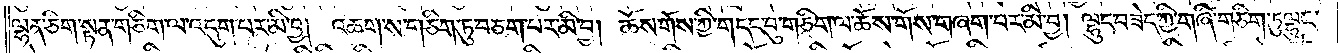ལྷན་ཅིག་སྟན་གཅིག་ལ་འདུག་པར་མི་བྱ། འཆག་ས་གཅིག་ཏུ་བཅག་པར་མི་བྱ། ཆོས་གོས་ཀྱི་གདང་བུ་གཅིག་ལ་ཆོས་གོས་གཞག་པར་མི་བྱ། ལྷུང་བཟེད་ཀྱི་གཞི་གཅིག་ཏུ་ལྷུང་
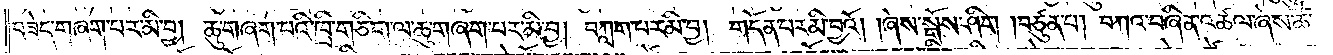བཟེད་གཞག་པར་མི་བྱ། ཆུ་གཞག་པའི་ཁྲི་གཅིག་ལ་ཆུ་གཞག་པར་མི་བྱ། བཀག་པར་མི་བྱ། གདོན་པར་མི་བྱའོ། །ཞེས་སྒྲོས་ཤིག །བཙུན་པ། བཀའ་བཞིན་འཚལ་ཞེས་ཚེ་
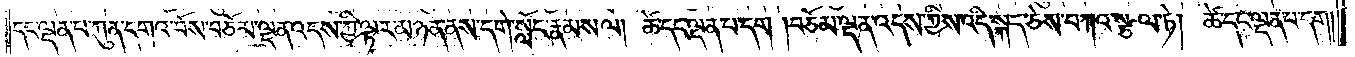དང་ལྡན་པ་ཀུན་དགའ་བོས་བཅོམ་ལྡན་འདས་ཀྱི་ལྟར་མཉན་ནས་དགེ་སློང་རྣམས་ལ། ཚེ་དང་ལྡན་པ་དག །བཅོམ་ལྡན་འདས་ཀྱིས་འདི་སྐད་ཅེས་བཀའ་སྩལ་ཏེ། ཚེ་དང་ལྡན་པ་དག།
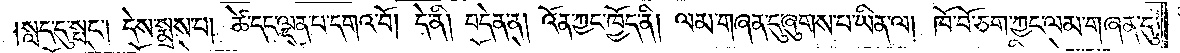སླད་དུ་སྤང༌། དེས་སྨྲས་པ། ཚེ་དང་ལྡན་པ་དགའ་བོ། དེ་ནི། བདེན་ན། འོན་ཀྱང་ཁྱོད་ནི། ལམ་གཞན་དུ་ཞུགས་པ་ཡིན་ལ། ཁོ་བོ་ཅག་ཀྱང་ལམ་གཞན་དུ་
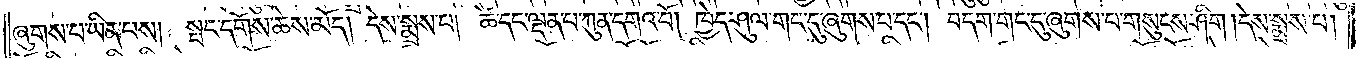ཞུགས་པ་ཡིན་པས། སྤང་དགོས་ཆེས་མོད། དེས་སྨྲས་པ། ཚེ་དང་ལྡན་པ་ཀུན་དགའ་བོ། ཁྱེད་ཤུལ་གང་དུ་ཞུགས་པ་དང༌། བདག་གང་དུ་ཞུགས་པ་གསུངས་ཤིག །དེས་སྨྲས་པ།
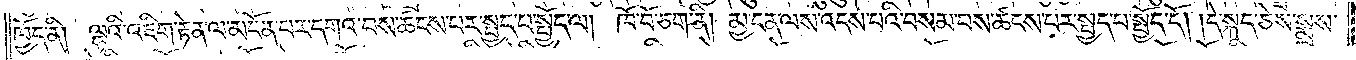ཁྱོད་ནི། ལྷའི་འཇིག་རྟེན་ལ་མངོན་པར་དགའ་བས་ཚངས་པར་སྤྱད་པ་སྤྱོད་ལ། ཁོ་བོ་ཅག་ནི། མྱ་ངན་ལས་འདས་པའི་བསམ་པས་ཚངས་པར་སྤྱད་པ་སྤྱོད་དོ། །དེ་སྐད་ཅེས་སྨྲས་
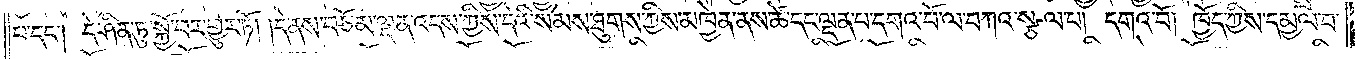པ་དང༌། དེ་ཤིན་ཏུ་སྐྱོ་བར་གྱུར་ཏོ། །དེ་ནས་བཅོམ་ལྡན་འདས་ཀྱིས་དེའི་སེམས་ཐུགས་ཀྱིས་མཁྱེན་ནས་ཚེ་དང་ལྡན་པ་དགའ་བོ་ལ་བཀའ་སྩལ་པ། དགའ་བོ། ཁྱོད་ཀྱིས་དམྱལ་བ་
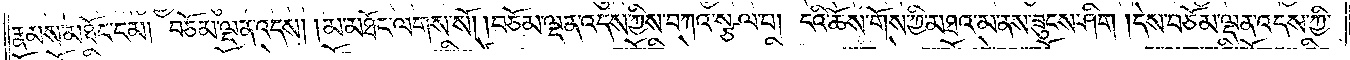རྣམས་མཐོང་ངམ། བཅོམ་ལྡན་འདས། །མ་མཐོང་ལགས་སོ། །བཅོམ་ལྡན་འདས་ཀྱིས་བཀའ་སྩལ་པ། ངའི་ཆོས་གོས་ཀྱི་མཐའ་མ་ནས་ཟུངས་ཤིག །དེས་བཅོམ་ལྡན་འདས་ཀྱི་
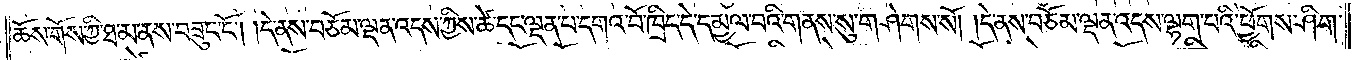ཆོས་གོས་ཀྱི་ཐ་མ་ནས་བཟུང་ངོ༌། །དེ་ནས་བཅོམ་ལྡན་འདས་ཀྱིས་ཚེ་དང་ལྡན་པ་དགའ་བོ་ཁྲིད་དེ་དམྱལ་བའི་གནས་སུ་གཤེགས་སོ། །དེ་ནས་བཅོམ་ལྡན་འདས་ལྷག་པའི་ཕྱོགས་ཤིག་
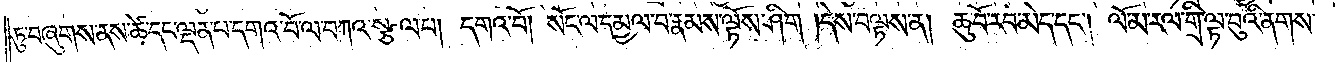ཏུ་བཞུགས་ནས་ཚེ་དང་ལྡན་པ་དགའ་བོ་ལ་བཀའ་སྩལ་པ། དགའ་བོ། སོང་ལ་དམྱལ་བ་རྣམས་ལྟོས་ཤིག །དེས་བལྟས་ན། ཆུ་བོ་རབ་མེད་དང༌། ལོ་མ་རལ་གྲི་ལྟ་བུའི་ནགས་
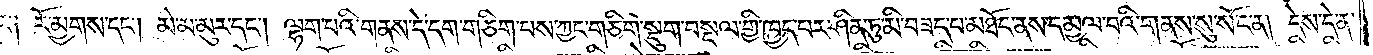ང༌། རོ་མྱགས་དང༌། མེ་མ་མུར་དང༌། ལྷག་པའི་གནས་དེ་དག་གཅིག་པས་ཀྱང་གཅིག་སྡུག་བསྔལ་གྱི་ཁྱད་པར་ཤིན་ཏུ་མི་བཟད་པ་མཐོང་ནས་དམྱལ་བའི་གནས་སུ་སོང་ན། དེས་དེ་ན་
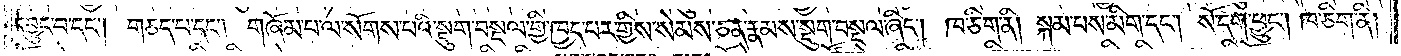དབྱུང་བ་དང༌། གཅད་པ་དང༌། གཞོམ་པ་ལ་སོགས་པའི་སྡུག་བསྔལ་གྱི་ཁྱད་པར་གྱིས་སེམས་ཅན་རྣམས་སྡུག་བསྔལ་ཞིང༌། ཁ་ཅིག་ནི། སྐམ་པས་མིག་དང༌། སོ་དག་ཕྱུང༌། ཁ་ཅིག་ནི།
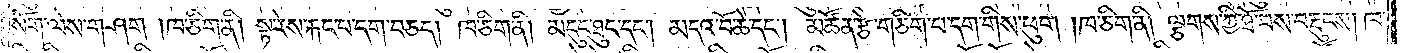སོག་ལེས་གཤག །ཁ་ཅིག་ནི། སྟ་རེས་རྐང་པ་དག་བཅད། ཁ་ཅིག་ནི། མདུང་ཐུང་དང༌། མདའ་བོ་ཆེ་དང༌། མཚོན་རྩེ་གཅིག་པ་དག་གིས་ཕུག །ཁ་ཅིག་ནི། ལྕགས་ཀྱི་ཐོ་བས་བརྡུངས། ཁ་
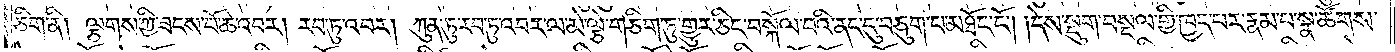ཅིག་ནི། ལྕགས་ཀྱི་ཟངས་པོ་ཆེ་འབར། རབ་ཏུ་འབར། ཀུན་ཏུ་རབ་ཏུ་འབར་ལ་མེ་ལྕེ་གཅིག་ཏུ་གྱུར་ཅིང་བསྐོལ་བའི་ནང་དུ་བཅུག་པ་མཐོང་ངོ༌། །དེས་སྡུག་བསྔལ་གྱི་ཁྱད་པར་རྣམ་པ་སྣ་ཚོགས་
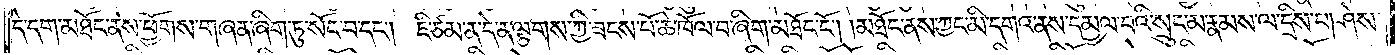དེ་དག་མཐོང་ནས་ཕྱོགས་གཞན་ཞིག་ཏུ་སོང་བ་དང༌། ཇི་ཙམ་ན་དེ་ན་ལྕགས་ཀྱི་ཟངས་པོ་ཆེ་ཁོལ་བ་ཞིག་མཐོང་ངོ༌། མཐོང་ནས་ཀྱང་མི་དགའ་ནས་དམྱལ་བའི་སྲུང་མ་རྣམས་ལ་དྲིས་པ། ཤེས་
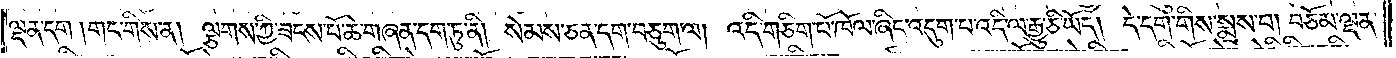ལྡན་དག །གང་གིས་ན། ལྕགས་ཀྱི་ཟངས་པོ་ཆེ་གཞན་དག་ཏུ་ནི། སེམས་ཅན་དག་བཅུག་ལ། འདི་གཅིག་པོ་ཁོལ་ཞིང་འདུག་པ་འདི་ལ་རྒྱུ་ཅི་ཡོད། དེ་དག་གིས་སྨྲས་པ། བཅོམ་ལྡན་
